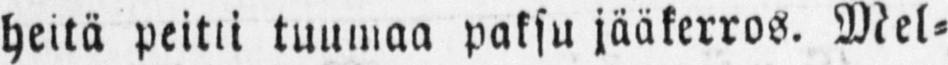heitä peitti tuumaa paksu jääkerros. Mel-
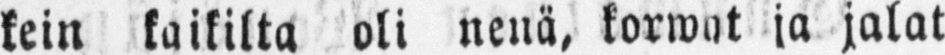kein kaikilta oli nenä, korwat ja jalat
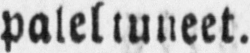paleltuneet.
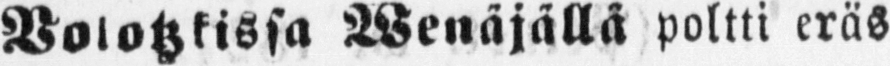Volotztkissa Wenäjällä poltti eräs
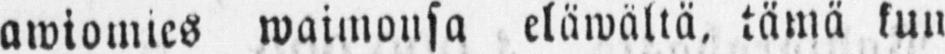awiomies waimonsa eläwältä, tämä kun
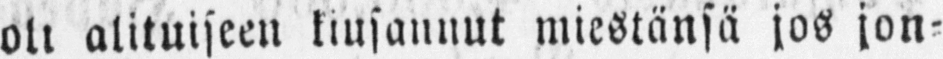oli alituiseen kiusannut miestänsä jos jon-
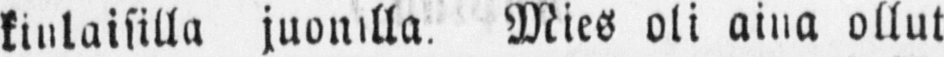kinlaisilla juonilla. Mies oli aina ollut
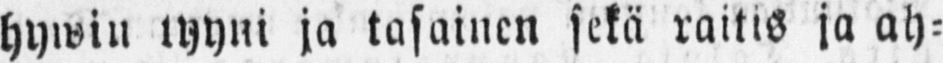hywin tyyni ja tasainen sekä raitis ja ah-
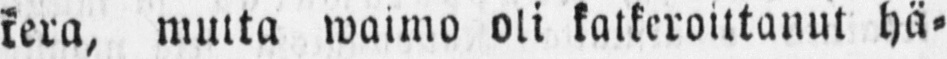kera, mutta waimo oli katkerouittanut hä-
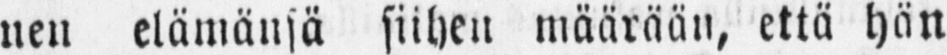nen elämänsä siihen määrään, että hän
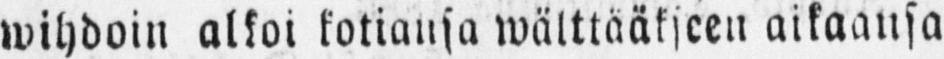wihdoin alkoi kotiansa wälttääkseen aikaansa
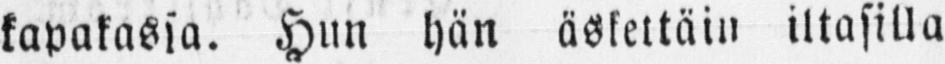kapakassa. Hun hän äskettäin iltasilla
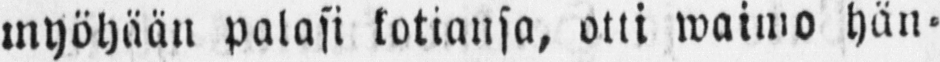myöhään palasi kotiansa, otti waimo hän-
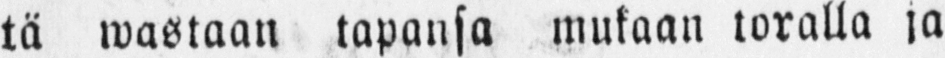tä wastaan tapansa mukaan toralla ja
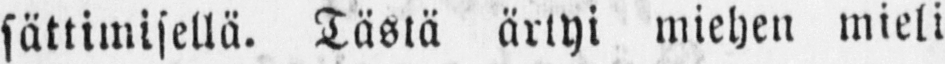sättimisellä. Tästä ärtyi miehen mieli
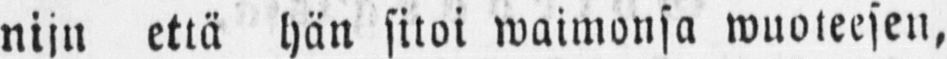niin että hän sitoi waimonsa wuoteesen,
